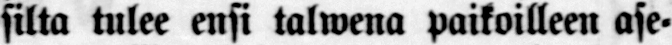silta tulee ensi talwena paikoilleen ase-
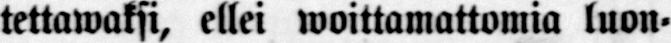tettawaksi, ellei woittamattomia luon-
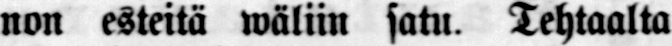non esteitä wäliin satu. Tehtaalta
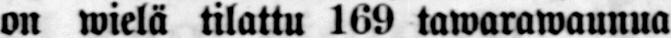on wielä tilattu 169 tawarawaunua
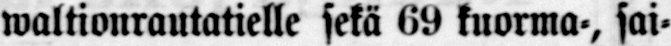waltionrautatielle sekä 69 kuorma-, sai-
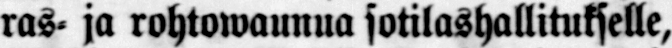ras- ja rohtowaunua sotilashallitukselle,
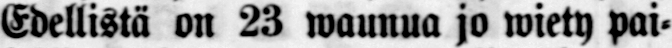Edellistä on 23 waunua jo wiety pai-
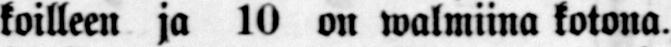koilleen ja 10 on walmiina kotona.
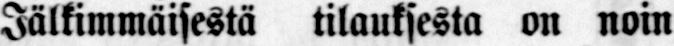Jälkimmäisestä tilauksesta on noin
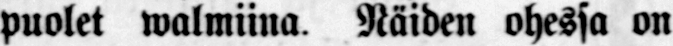puolet walmiina Näiden ohessa on
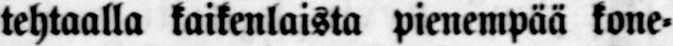tehtaalla kaikenlaista pienempää kone-
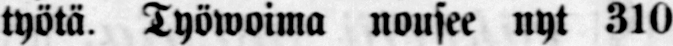työtä Työwoima nousee nyt 310
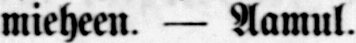mieheen. — Aamul.
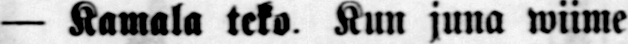— Kamala teko Kun juna wiime
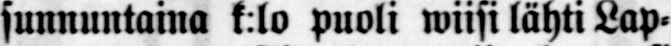sunnuntaina k:lo puoli wiisi lähti Lap-
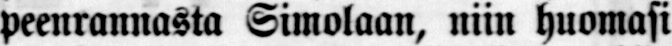peenrannasta Simolaan, niin huomasi
